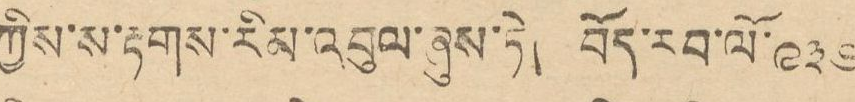ཀྱིས་ས་རྟགས་རིམ་འབུལ་ཞུས་ཏེ། བོད་རབ་ལོ ༩༣༦
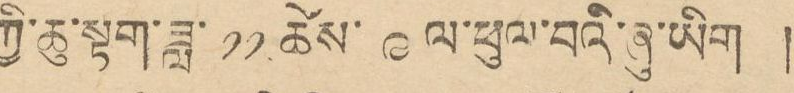ཀྱི་ཆུ་སྟག་ཟླ་ ༡༡ ཚེས་ ༩ ལ་ཕུལ་བའི་ཞུ་ཡིག །
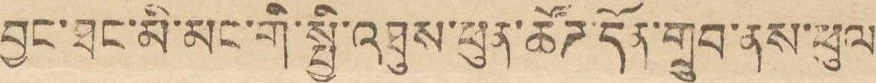བྱང་ཐང་མི་མང་གི་སྤྱི་འཐུས་ཕུན་ཚོཊ་དོན་གྲུབ་བས་ཕུལ
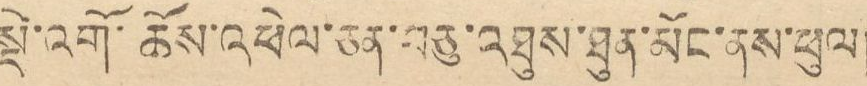སྡེ་འགོ་ཆོས་འཕེལ་ཅན་བཅུ་འཐུས་ཐུན་མོང་ནས་ཕུལ།
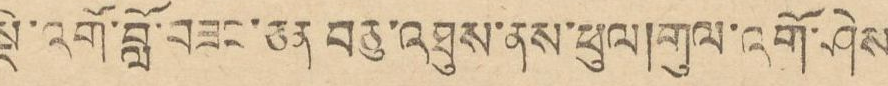སྡེ་འགོ་བློ་བཟང་ཅན་བཅུ་འཐུས་ནས་ཕུལ།གུལ་འགོ་ཤེས
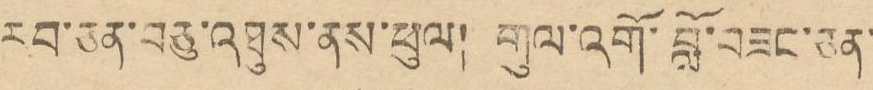རབ་ཅན་བཅུ་འཐུས་ནས་ཕུལ། གུལ་འགོ་བློ་བཟང་ཅན་
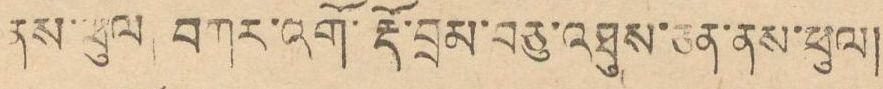ནས་ཕུལ བཀར་འོག་རྡོ་བྲམ་བཅུ་འཐུས་ཅན་ནས་ཕུལ།
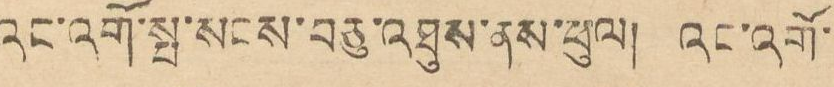འང་འགོ་སྤ་སངས་བཅུ་འཐུས་ནས་ཕུལ། འང་འགོ་
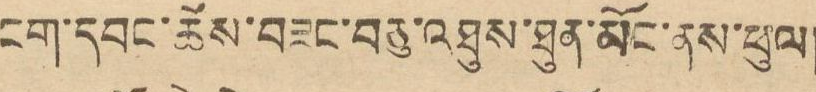ངག་དབང་ཆོས་བཟང་བཅུ་འཐུས་ཐུན་མོང་ནས་ཕུལ།
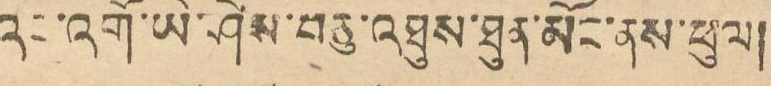འང་འགོ་ཡེ་ཤེས་བཅུ་འཐུས་ཐུན་མོང་ནས་ཕུལ།
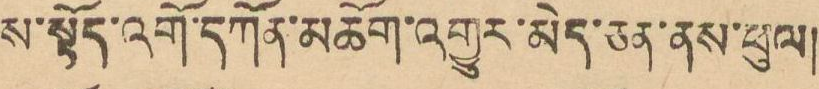ས་སྟོད་འགོ་དཀོན་མཆོག་འགྱུར་མེད་ཅན་ནས་ཕུལ།
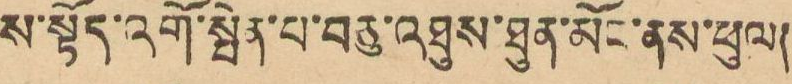ས་སྟོད་འགོ་སྤེན་པ་བཅུ་འཐུས་ཐུན་མོང་ནས་ཕུལ།
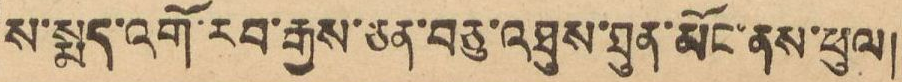ས་སྨད་འགོ་རབ་རྒྱས་ཅན་བཅུ་འཐུས་ཐུན་མོང་ནས་ཕུལ།
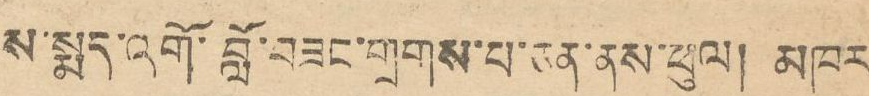ས་སྨད་འགོ་བློ་བཟང་གྲགས་པ་ཅན་ནས་ཕུལ། མཁར
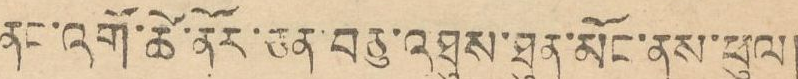ནང་འགོ་ཚེ་ནོར་ཅན་བཅུ་འཐུས་ཐུན་མོང་ནས་ཕུལ།
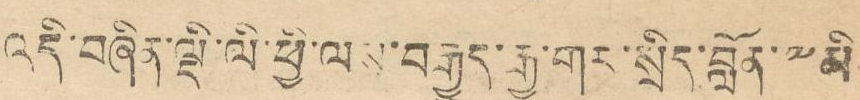འདི་བཞིན་ལྡི་ལི་ཕྱི་ལས་བརྒྱུད་རྒྱ་གར་སྲིད་བློན་༸མི་
